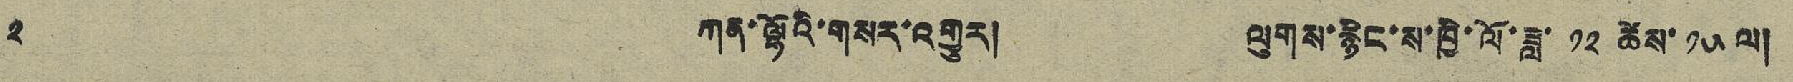༢ ཀན་ལྷོའི་གསར་འགྱུར། ལུགས་རྙིང་ས་ཁྱི་ལོ་ཟླ་ ༡༢ ཚེས་ ༡༥ ལ།
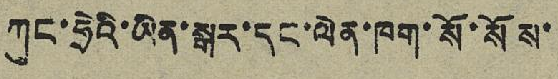ཀུང་ཧྲེའི་ཡིན་སྒར་དང་ལེན་ཁག་སོ་སོས་
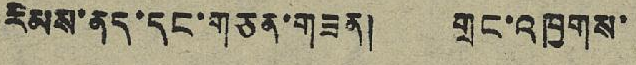རིམས་ནད་དང་གཅན་གཟན། གྲང་འཁྱགས་
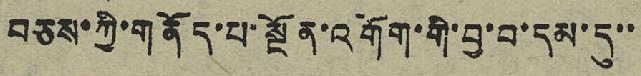བཅས་ཀྱི་གནོད་པ་སྔོན་འགོག་གི་བྱ་བ་དམ་དུ་་
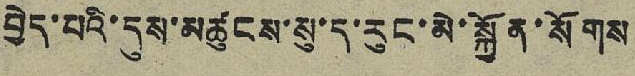བྱེད་པའི་དུས་མཚུངས་སུ་ད་རུང་མེ་སྐྱོན་སོགས
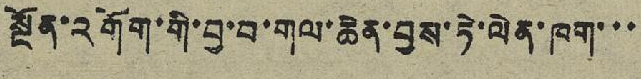སྔོན་འགོག་གི་བྱ་བ་གལ་ཆེན་བྱས་ཏེ་ལེན་ཁག་་་
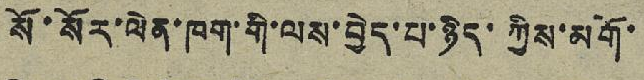སོ་སོར་ལེན་ཁག་གི་ལས་བྱེད་པ་ཉིད་ཀྱིས་མགོ་
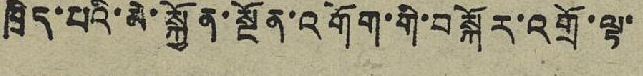ཁྲིད་པའི་མེ་སྐྱོན་སྔོན་འགོག་གི་བསྐོར་འགྲོ་ལྟ་
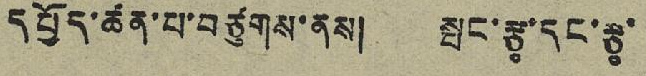དཔྱོད་ཚན་པ་བཙུགས་ནས། སྤང་རྩྭ་དང་རྩྭ་
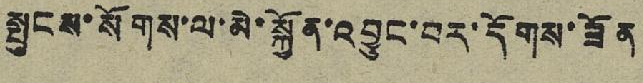སྤུངས་སོགས་ལ་མེ་སྐྱོན་འབྱུང་བར་དོགས་ཟོན
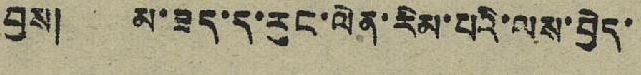བྱས། མ་ཟད་ད་རུང་ལེན་རིམ་པའི་ལས་བྱེད་
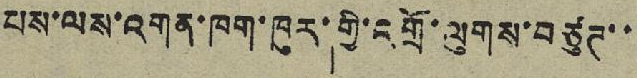པས་ལས་འགན་ཁག་ཁུར་གྱི་འགྲོ་ལུགས་བཙུཌ་་
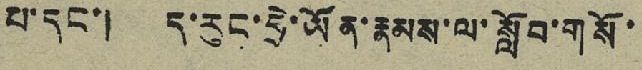པ་དང་། ད་རུང་ཧྲེ་ཡོན་རྣམས་ལ་སློབ་གསོ་
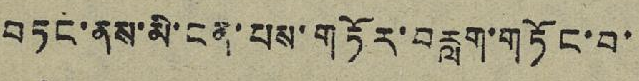བཏང་ནས་མི་ངན་པས་གཏོར་བརླག་གཏོང་བ་
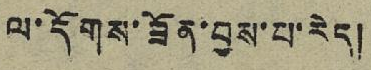ལ་དོགས་ཟོན་བྱས་པ་རེད།
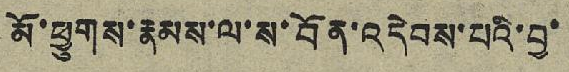མོ་ཕྱུགས་རྣམས་ལ་ས་བོན་འདེབས་པའི་བྱ་
